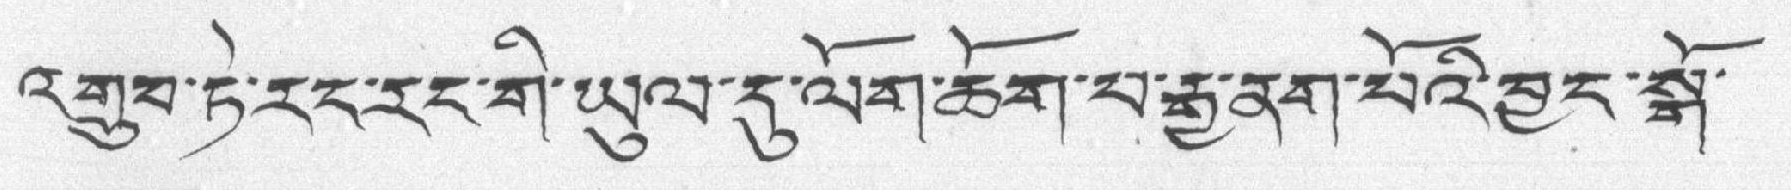འགྲུབ་ཏེ་རང་རང་གི་ཡུལ་དུ་ལོག་ཆོག་པ་རྒྱ་ནག་པོའི་བྱང་སྒོ་
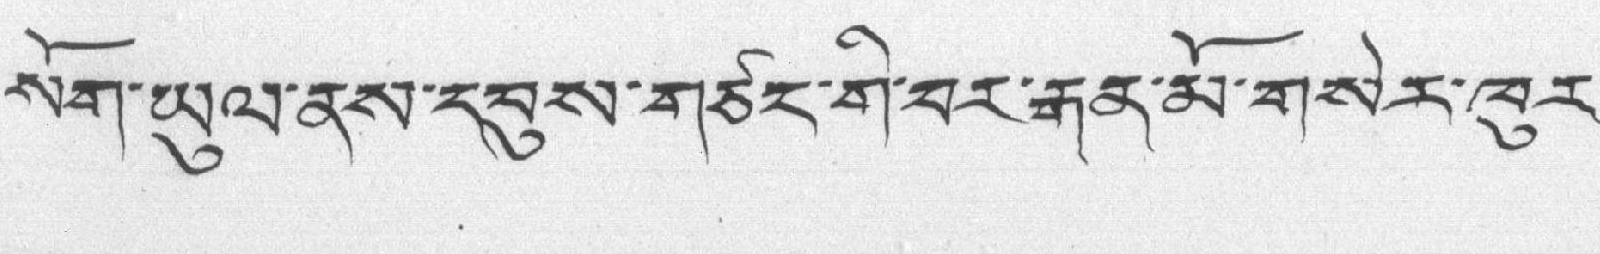སོག་ཡུལ་ནས་དབུས་གཙང་གི་བར་རྒན་མོ་གསེར་ལུར་
